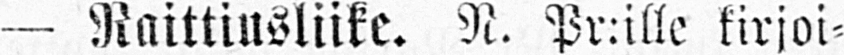— Raittiusliike. N. Pr:ille kirjoi-
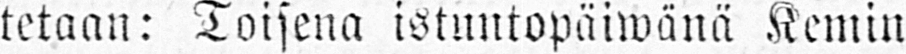tetaan: Toisena istuntopäiwänä Kemin
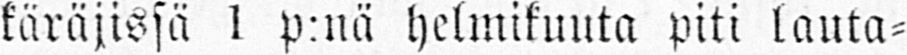käräjissä 1 p:nä helmikuuta piti lauta-
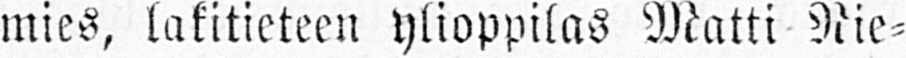mies, lakitieteen ylioppilas Matti Nie-
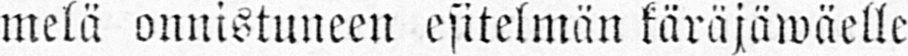melä onnistuneen esitelmän käräjäwäelle
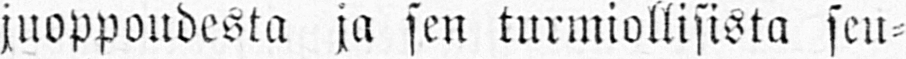juoppoudesta ja sen turmiollisista sen-
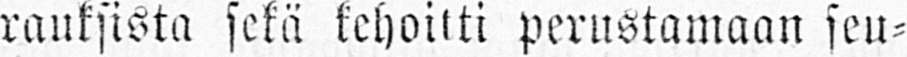rauksista sekä kehoitti perustamaan seu-
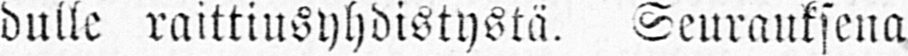dulle raittiusyhdistystä. Seurauksena
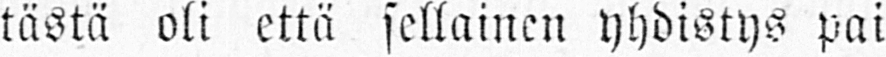tästä oli että sellainen yhdistys pai-
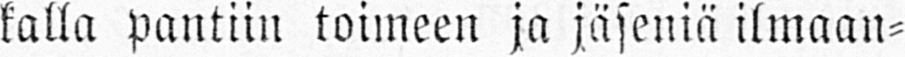kalla pantiin toimeen ja jäseniä ilmaan-
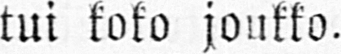tui koko joukko.
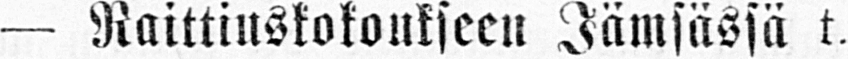— Raittiuskokoukseen Jämsässä t.
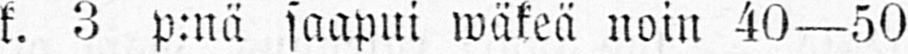k. 8 p:nä saapui wäkeä noin 40—50
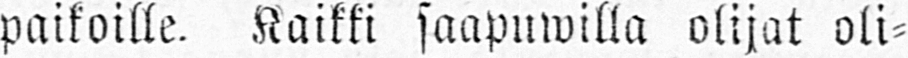paikoille. Kaikki saapuwilla olijat oli-
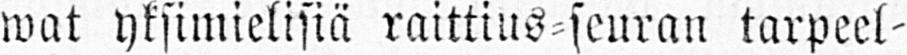wat yksimielisiä raittius-seuran tarpeel-
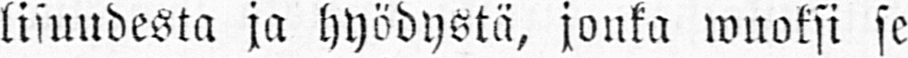lisuudesta ja hyödystä, jonka wuoksi se
